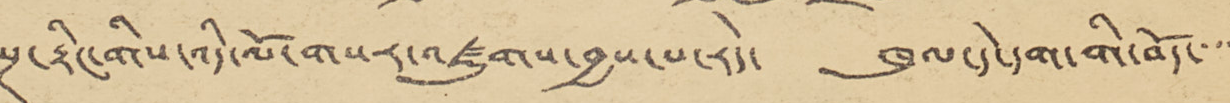སྔ་རྟིང་གིས་འདི་ལོ་གསར་འཛུགས་བྱས་པ་རེད་ ཁུལ་དེ་དག་གི་བོད་་་་
